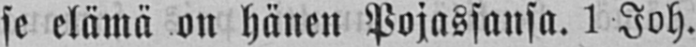se elämä on hänen Pojassansa. 1 Joh.
